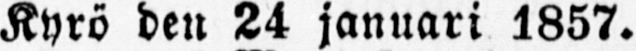Kyrö den 24 januari 1857.
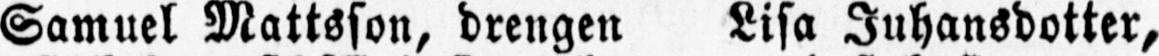Samuel Mattsson, drengen Lisa Juhansdotter,
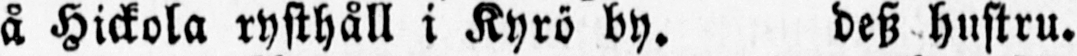å Hickola rysthåll i Kyrö by. dess hustru.
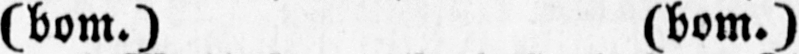(bom.) (bom.)
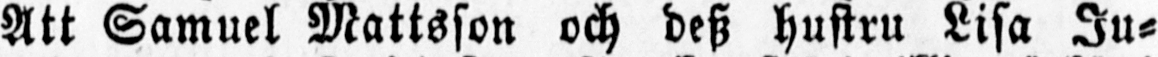Att Samuel Mattsson och dess hustru Lisa Ju-
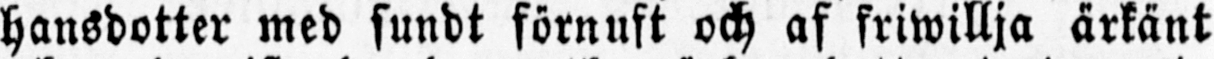hansdotter med sundt förnust och af friwillja ärkänt
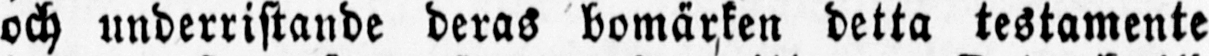och underristande deras bomärken detta testamente
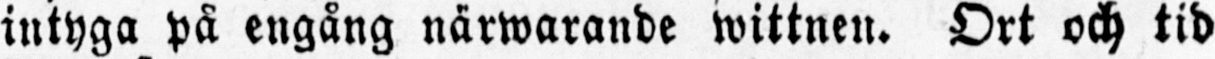intyga på engång närwarande wittnen. Ort och tid
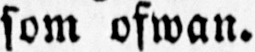som ofwan.
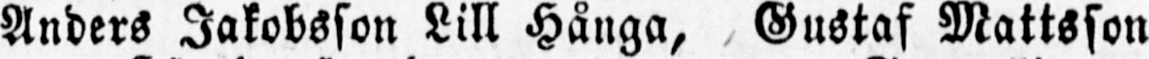Anders Jakobsson Lill Hånga, Gustaf Mattsson
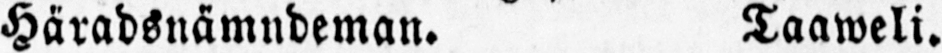Häradsnämndeman. Taaweli.
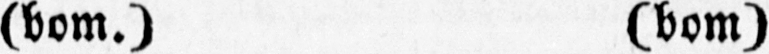(bom.) (bom)
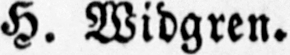H.Widgren.
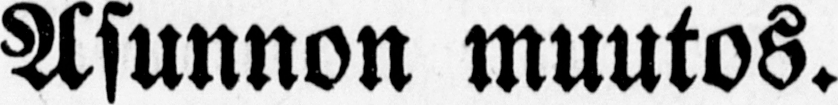Asunnon muutos.
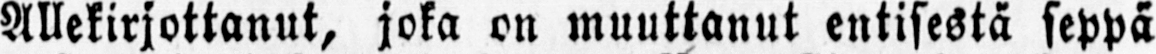Allekirjottanut, joka on muuttanut entisestä seppä
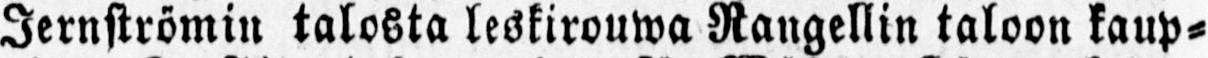Jernströmin talosta leskirouwa Rangellin taloon kaup-
